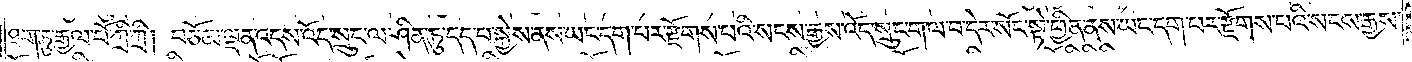ཐག་ཏུ་རྒྱལ་པོ་ཀྲི་ཀྲི། བཅོམ་ལྡན་འདས་འོད་སྲུང་ལ་ཤིན་ཏུ་དད་པ་སྐྱེས་ནས་ཡང་དག་པར་རྫོགས་པའི་སངས་རྒྱས་འོད་སྲུང་ག་ལ་བ་དེར་སོང་སྟེ་ཕྱིན་ནས་ཡང་དག་པར་རྫོགས་པའི་སངས་རྒྱས་
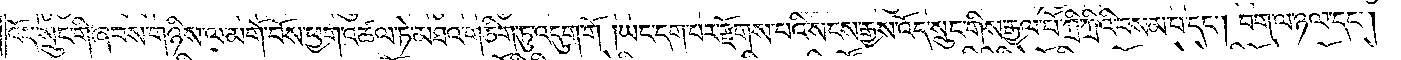འོད་སྲུང་གི་ཞབས་གཉིས་ལ་མགོ་བོས་ཕྱག་འཚལ་ཏེ་མཐའ་གཅིག་ཏུ་འདུག་གོ །ཡང་དག་པར་རྫོགས་པའི་སངས་རྒྱས་འོད་སྲུང་གིས་རྒྱལ་པོ་ཀྲི་ཀྲིའི་བསམ་པ་དང༌། བག་ལ་ཉལ་དང༌།
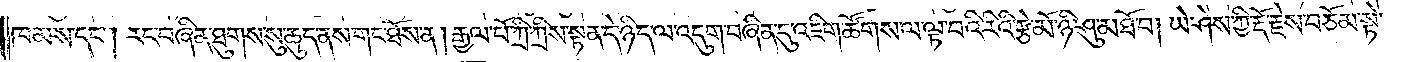ཁམས་དང༌། རང་བཞིན་ཐུགས་སུ་ཆུད་ནས་གང་ཐོས་ན། རྒྱལ་པོ་ཀྲི་ཀྲིས་སྟན་དེ་ཉིད་ལ་འདུག་བཞིན་དུ་འཇིག་ཚོགས་ལ་ལྟ་བའི་རིའི་རྩེ་མོ་ཉི་ཤུ་མཐོ་བ། ཡེ་ཤེས་ཀྱི་རྡོ་རྗེས་བཅོམ་སྟེ་
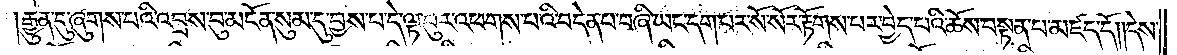།རྒྱུན་དུ་ཞུགས་པའི་འབྲས་བུ་མངོན་སུམ་དུ་བྱས་པ་དེ་ལྟ་བུར་འཕགས་པའི་བདེན་པ་བཞི་ཡང་དག་པར་སོ་སོར་རྟོགས་པར་བྱེད་པའི་ཆོས་བསྟན་པ་མཛད་དོ། །དེས་
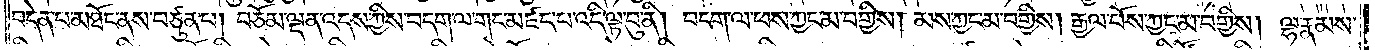བདེན་པ་མཐོང་ནས་བཙུན་པ། བཅོམ་ལྡན་འདས་ཀྱིས་བདག་ལ་གང་མཛད་པ་འདི་ལྟ་བུ་ནི། བདག་ལ་ཕས་ཀྱང་མ་བགྱིས། མས་ཀྱང་མ་བགྱིས། རྒྱལ་པོས་ཀྱང་མ་བགྱིས། ལྷ་རྣམས་
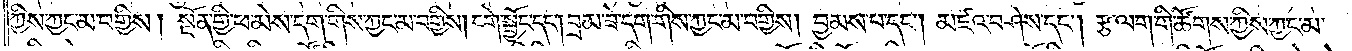ཀྱིས་ཀྱང་མ་བགྱིས། སྔོན་གྱི་ཕ་མེས་དག་གིས་ཀྱང་མ་བགྱིས། དགེ་སྦྱོང་དང༌། བྲམ་ཟེ་དག་གིས་ཀྱང་མ་བགྱིས། བྱམས་པ་དང༌། མཛའ་བཤེས་དང༌། རྩ་ལག་གི་ཚོགས་ཀྱིས་ཀྱང་མ་
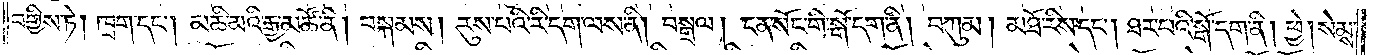བགྱིས་ཏེ། ཁྲག་དང༌། མཆི་མའི་རྒྱ་མཚོ་ནི། བསྐམས། རུས་པའི་རི་དག་ལས་ནི། བསྒྲལ། ངན་སོང་གི་སྒོ་དག་ནི། བཀུམ། མཐོ་རིས་དང༌། ཐར་པའི་སྒོ་དག་ནི། ཕྱེ། སེམས་
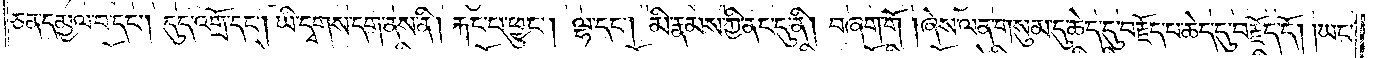ཅན་དམྱལ་བ་དང༌། དུད་འགྲོ་དང༌། ཡི་དྭགས་དག་ནས་ནི། རྐང་པ་ཕྱུང༌། ལྷ་དང༌། མི་རྣམས་ཀྱི་ནང་དུ་ནི། བཞག་གོ །ཞེས་ལན་གསུམ་དུ་ཆེད་དུ་བརྗོད་པ་ཆེད་དུ་བརྗོད་དོ། །ཡང་
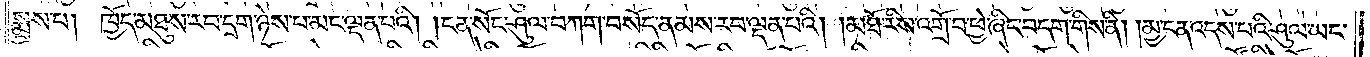སྨྲས་པ། ཁྱོད་མཐུས་རབ་དྲག་ཉེས་པ་མང་ལྡན་པའི། །ངན་སོང་ཤུལ་བཀག་བསོད་ནམས་རབ་ལྡན་པའི། །མཐོ་རིས་འགྲོ་བ་ཕྱེ་ཞིང་བདག་གིས་ནི། །མྱ་ངན་འདས་པའི་ཤུལ་ཡང་
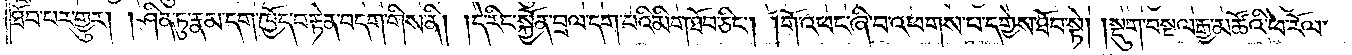ཐོབ་པར་གྱུར། །ཤིན་ཏུ་རྣམ་དག་ཁྱོད་བརྟེན་བདག་གིས་ནི། །དེ་རིང་སྐྱོན་བྲལ་དག་པའི་མིག་ཐོབ་ཅིང༌། །གོ་འཕང་ཞི་བ་འཕགས་པ་དགྱེས་ཐོབ་སྟེ། །སྡུག་བསྔལ་རྒྱ་མཚོའི་ཕ་རོལ་
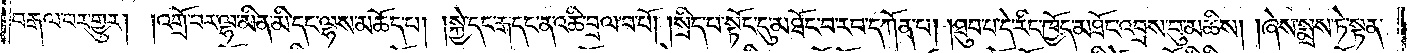བརྒལ་བར་གྱུར། །འགྲོ་བར་ལྷ་མིན་མི་དང་ལྷས་མཆོད་པ། །སྐྱེ་དང་རྒ་དང་ན་འཆི་བྲལ་བ་པོ། །སྲིད་པ་སྟོང་དུ་མཐོང་བ་རབ་དཀོན་པ། །ཐུབ་པ་དེ་རིང་ཁྱོད་མཐོང་འབྲས་བུ་མཆིས། །ཞེས་སྨྲས་ཏེ་སྟན་
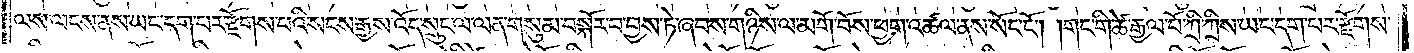ལས་ལངས་ནས་ཡང་དག་པར་རྫོགས་པའི་སངས་རྒྱས་འོད་སྲུང་ལ་ལན་གསུམ་བསྐོར་བ་བྱས་ཏེ་ཞབས་གཉིས་ལ་མགོ་བོས་ཕྱག་འཚལ་ནས་སོང་ངོ༌། །གང་གི་ཚེ་རྒྱལ་པོ་ཀྲི་ཀྲིས་ཡང་དག་པར་རྫོགས་
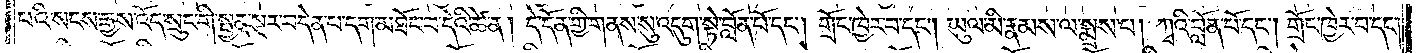པའི་སངས་རྒྱས་འོད་སྲུང་གི་སྤྱན་སྔར་བདེན་པ་དག་མཐོང་བ་དེའི་ཚེ་ན། དེ་དོན་གྱི་གནས་སུ་འདུག་སྟེ་བློན་པོ་དང༌། གྲོང་ཁྱེར་བ་དང༌། ཡུལ་མི་རྣམས་ལ་སྨྲས་པ། ཀྭའི་བློན་པོ་དང༌། གྲོང་ཁྱེར་བ་དང༌།
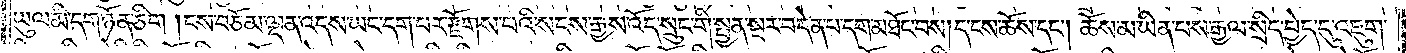ཡུལ་མི་དག་ཉོན་ཅིག །ངས་བཅོམ་ལྡན་འདས་ཡང་དག་པར་རྫོགས་པའི་སངས་རྒྱས་འོད་སྲུང་གི་སྤྱན་སྔར་བདེན་པ་དག་མཐོང་བས། ད་ངས་ཆོས་དང༌། ཆོས་མ་ཡིན་པས་རྒྱལ་སྲིད་བྱེད་དུ་འཇུག་
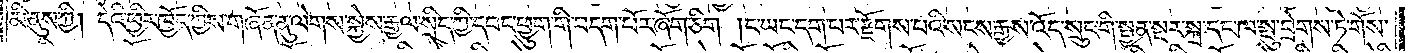མི་ནུས་ཀྱི། དེའི་ཕྱིར་ཁྱོད་ཀྱིས་གཞོན་ནུ་ལེགས་སྐྱེས་རྒྱལ་སྲིད་ཀྱི་དབང་ཕྱུག་གི་བདག་པོར་ཞོག་ཅིག །ང་ཡང་དག་པར་རྫོགས་པའི་སངས་རྒྱས་འོད་སྲུང་གི་སྤྱན་སྔར་སྐྲ་དང་ཁ་སྤུ་བྲེགས་ཏེ་གོས་
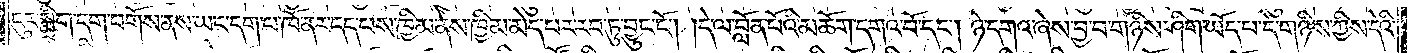ངུར་སྨྲིག་དག་བགོས་ནས་ཡང་དག་པ་ཁོ་ནར་དད་པས་ཁྱིམ་ནས་ཁྱིམ་མེད་པར་རབ་ཏུ་བྱུང་ངོ༌། །དེ་ལ་བློན་པོའི་མཆོག་དགའ་བོ་དང༌། ཉེ་དགའ་ཞེས་བྱ་བ་གཉིས་ཤིག་ཡོད་པ་དེ་གཉིས་ཀྱིས་དེའི་
